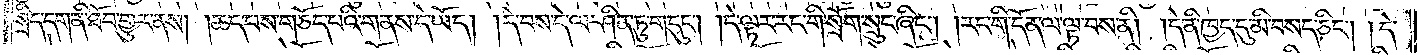སྲིད་དག་ནི་ཐོབ་གྱུར་ནས། །ཆད་པས་གཅོད་པའི་གནས་དེ་ཡོད། །དེ་བས་དེ་ལ་ཤིན་ཏུ་གདུང༌། །དེ་ལྟར་རང་གི་སྲོག་སྲུང་ཞིང༌། །རང་གི་དོན་ལ་ལྟ་བས་ནི། །དེ་ནི་ཁྱད་དུ་མི་བསད་ཅིང༌། །དེ་
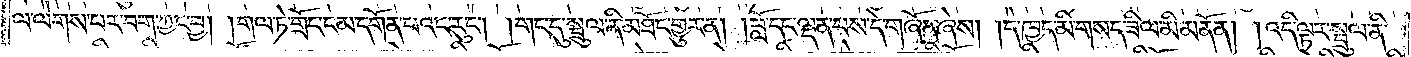ལ་ལེགས་པར་བག་ཀྱང་བྱ། །གལ་ཏེ་གྲོང་ངམ་དགོན་པའང་རུང༌། །གང་དུ་སྦྲུལ་ནི་མཐོང་གྱུར་ན། །བློ་དང་ལྡན་པས་དེ་གཞོན་ཞེས། །དེ་ཁྱད་མི་གསད་ཟིལ་མི་མནོན། །འདི་ལྟར་སྦྲུལ་ནི་
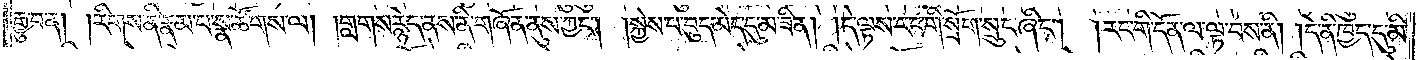རྒྱུ་བ་ན། །རིགས་ནི་རྣམ་པ་སྣ་ཚོགས་ལ། །གླགས་རྙེད་ནས་ནི་གཞོན་ནུས་ཀྱང༌། །སྐྱེས་པ་བུད་མེད་དུ་མ་ཟིན། །དེ་ལྟས་རང་གི་སྲོག་སྲུང་ཞིང༌། །རང་གི་དོན་ལ་ལྟ་བས་ནི། །དེ་ནི་ཁྱད་དུ་མི་
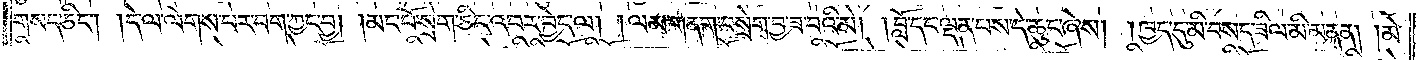གསད་ཅིང༌། །དེ་ལ་ལེགས་པར་བག་ཀྱང་བྱ། །མང་པོ་སྲེག་ཅིང་འབར་བྱེད་ལ། །ལམ་གནག་བསྲེག་བྱ་ཟ་བའི་མེ། །བློ་དང་ལྡན་པས་དེ་ཆུང་ཞེས། །ཁྱད་དུ་མི་བསད་ཟིལ་མི་མནན། །མེ་
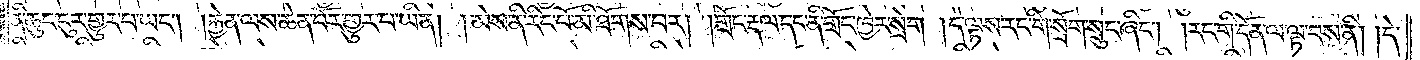ནི་ཆུང་ངུར་གྱུར་པ་ཡང༌། །རྐྱེན་ལས་ཆེན་པོར་གྱུར་པ་ཡིན། །མེས་ནི་རིང་པོ་མི་ཐོགས་པར། །གྲོང་རྡལ་དང་ནི་གྲོང་ཁྱེར་སྲེག །དེ་ལྟས་རང་གི་སྲོག་སྲུང་ཞིང༌། །རང་གི་དོན་ལ་ལྟ་བས་ནི། །དེ་
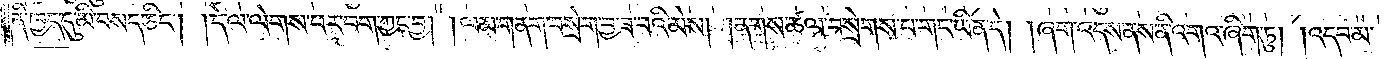ནི་ཁྱད་དུ་མི་བསད་ཅིང༌། །དེ་ལ་ལེགས་པར་བག་ཀྱང་བྱ། །ལམ་གནག་བསྲེག་བྱ་ཟ་བའི་མེས། །ནགས་ཚལ་བསྲེགས་པ་གང་ཡིན་དེ། །ཞག་འདས་ནས་ནི་འགའ་ཞིག་ཏུ། །འདབ་མ་
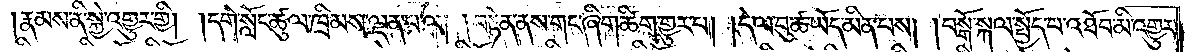།རྣམས་ནི་སྐྱེ་འགྱུར་གྱི། །དགེ་སློང་ཚུལ་ཁྲིམས་ལྡན་པ་ལ། །བརྟེན་ནས་གང་ཞིག་ཚིག་གྱུར་པ། །དེ་ལ་བུ་ཚ་ཡོད་མིན་པས། །བསྒོ་སྐལ་སྤྱོད་པ་འཐོབ་མི་འགྱུར་
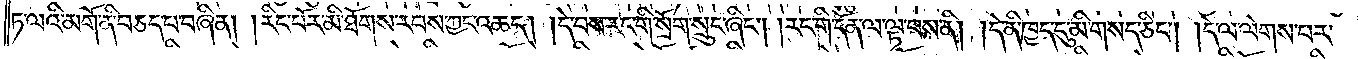ཏ་ལའི་མགོ་ནི་བཅད་པ་བཞིན། །རིང་པོར་མི་ཐོགས་རབས་ཀྱང་འཆད། །དེ་བས་རང་གི་སྲོག་སྲུང་ཞིང༌། །རང་གི་དོན་ལ་ལྟ་བས་ནི། །དེ་ནི་ཁྱད་དུ་མི་གསད་ཅིང༌། །དེ་ལ་ལེགས་པར་
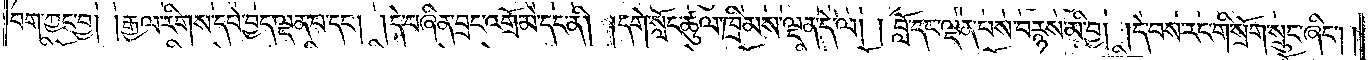བག་ཀྱང་བྱ། །རྒྱལ་རིགས་དཔེ་བྱད་ལྡན་པ་དང༌། །དེ་བཞིན་བྲང་འགྲོ་མེ་དང་ནི། །དགེ་སློང་ཚུལ་ཁྲིམས་ལྡན་དེ་ལ། །བློ་དང་ལྡན་པས་བརྙས་མི་བྱ། །དེ་བས་རང་གི་སྲོག་སྲུང་ཞིང༌། །
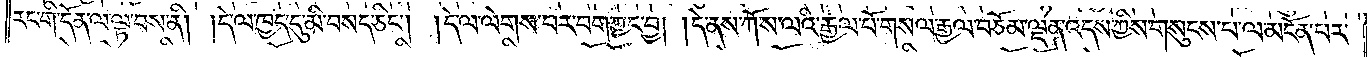རང་གི་དོན་ལ་ལྟ་བས་ནི། །དེ་ལ་ཁྱད་དུ་མི་བསད་ཅིང༌། །དེ་ལ་ལེགས་པར་བག་ཀྱང་བྱ། །དེ་ནས་ཀོ་ས་ལའི་རྒྱལ་པོ་གསལ་རྒྱལ་བཅོམ་ལྡན་འདས་ཀྱིས་གསུངས་པ་ལ་མངོན་པར་
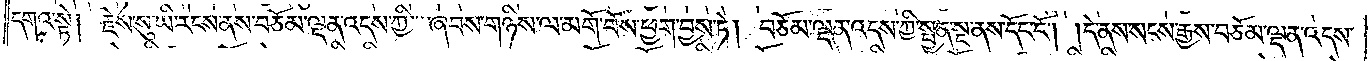དགའ་སྟེ། རྗེས་སུ་ཡི་རངས་ནས་བཅོམ་ལྡན་འདས་ཀྱི་ཞབས་གཉིས་ལ་མགོ་བོས་ཕྱག་བྱས་ཏེ། བཅོམ་ལྡན་འདས་ཀྱི་སྤྱན་སྔ་ནས་དོང་ངོ༌། །དེ་ནས་སངས་རྒྱས་བཅོམ་ལྡན་འདས་
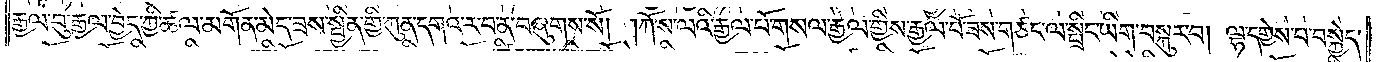རྒྱལ་བུ་རྒྱལ་བྱེད་ཀྱི་ཚལ་མགོན་མེད་ཟས་སྦྱིན་གྱི་ཀུན་དགའ་ར་བ་ན་བཞུགས་སོ། །ཀོ་ས་ལའི་རྒྱལ་པོ་གསལ་རྒྱལ་གྱིས་རྒྱལ་པོ་ཟས་གཙང་ལ་སྤྲིང་ཡིག་བསྐུར་བ། ལྷ་དགྱེས་པ་བསྐྱེད་
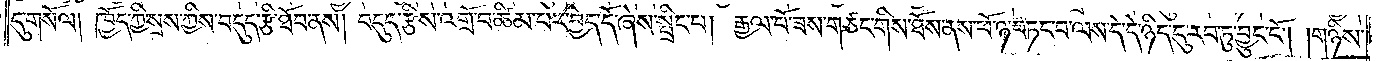དུ་གསོལ། ཁྱོད་ཀྱི་སྲས་ཀྱིས་བདུད་རྩི་ཐོབ་ནས། བདུད་རྩིས་འགྲོ་བ་ཚིམ་པར་བྱེད་དོ་ཞེས་སྤྲིང་པ། རྒྱལ་པོ་ཟས་གཙང་གིས་ཐོས་ནས་ཕོ་ཉ་བཏང་བ་ལས་དེ་དེ་ཉིད་དུ་རབ་ཏུ་བྱུང་ངོ༌། །གཉིས་
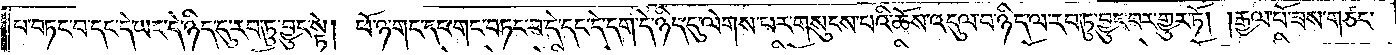པ་བཏང་བ་དང་དེ་ཡང་དེ་ཉིད་དུ་རབ་ཏུ་བྱུང་སྟེ། ཕོ་ཉ་གང་དང་གང་བཏང་བ་དེ་དང་དེ་དག་དེ་ཉིད་དུ་ལེགས་པར་གསུངས་པའི་ཆོས་འདུལ་བ་ཉིད་ལ་རབ་ཏུ་བྱུང་བར་གྱུར་ཏོ། །རྒྱལ་པོ་ཟས་གཙང་
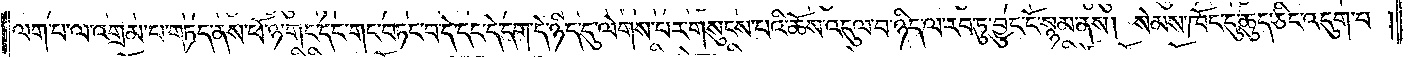ལག་པ་ལ་འགྲམ་པ་གཏད་ནས་ཕོ་ཉ་གང་དང་གང་བཏང་བ་དེ་དང་དེ་དག་དེ་ཉིད་དུ་ལེགས་པར་གསུངས་པའི་ཆོས་འདུལ་བ་ཉིད་ལ་རབ་ཏུ་བྱུང་ངོ་སྙམ་ནས། སེམས་ཁོང་དུ་ཆུད་ཅིང་འདུག་པ།
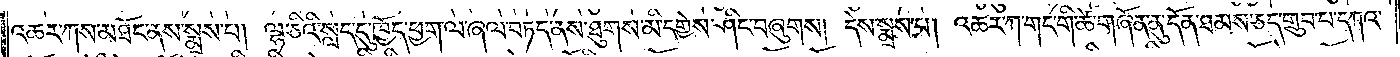འཆར་ཀས་མཐོང་ནས་སྨྲས་པ། ལྷ་ཅིའི་སླད་དུ་ཁྱོད་ཕྱག་ལ་ཞལ་བཏད་ནས་ཐུགས་མི་དགྱེས་ཤིང་བཞུགས། དེས་སྨྲས་པ། འཆར་ཀ་གང་གི་ཚེ་གཞོན་ནུ་དོན་ཐམས་ཅད་གྲུབ་པ་དཀའ་
